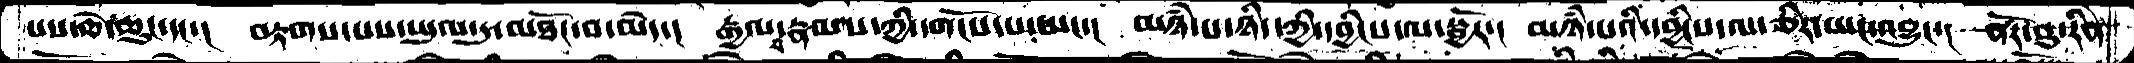པས་ཆེ་ཆུང་དང་།  བརྟགས་པས་ཡུལ་དུ་མཐོང་བ་མེད་།  རྒྱལ་བ་རྣམས་ཀྱི་དགོངས་པ་ཡང་།  མཉཾ་པ་ཉིད་ཀྱི་དབྱིངས་ལ་སྦྱོར་།  མཉཾ་པའི་དབྱིངས་ལ་ཅིར་ཡང་འབྱུང་།  ནོར་བུ་རིན
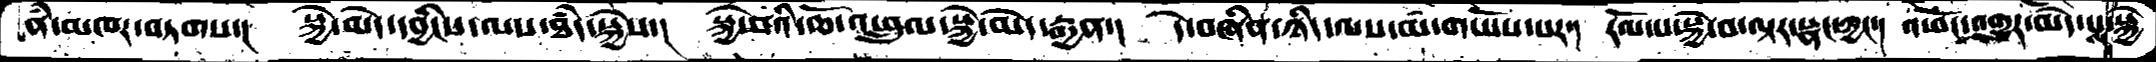ནཾ་མཁར་བཏགས་།  སྐྱེ་མེད་དབྱིངས་ལས་ཐཾད་སྐྱེས་།  སྐྱེ་བའི་ཆོ་འཕྲུལ་སྐྱེ་མེད་རྒྱན་།  དེ་བཞིན་ཉིད་ལས་མ་གཡོས་པར་།  རོལ་པ་སྐྱེ་བ་ལྟར་སྣང་ཀྱང་།  འཕོང་འགྱུར་མེད་པས་སྐྱེ
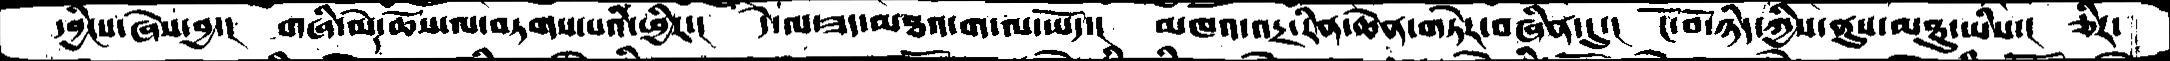དབྱིངས་ཞེས་བྱ་།  གཞི་མེད་ཆོས་ལ་བཏགས་པའི་ཕྱིར་།  དེ་ལ་ཟད་མཐའ་ག་ལ་ཡོད་།  མཁའ་འདྲ་རིན་ཆེན་གཏེར་བཞིན་དུ་།  ངོོ་བོ་ཉིད་ཀྱིས་ནུས་མཐུ་ཡིས་།  ཅིར་
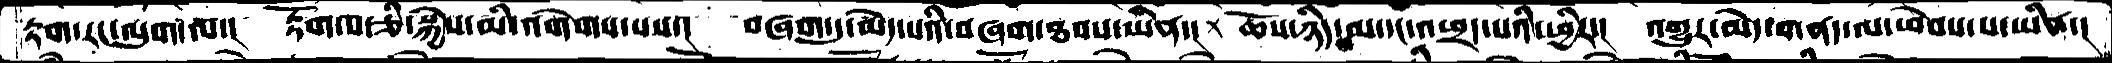རྟག་རང་ལུག་ལ་།  རྟོག་པ་ཅི་སྐྱེས་མི་འགེགས་པས་།  བཞག་དུ་མེད་པའི་བཞག་ཐབས་ཡིན་།  ཆོས་ཉིད་མ་དང་འཕྲད་པའི་ཕྱིར་།  འགྱུར་མེད་གནད་ལ་ཕེབས་པ་ཡིན་།
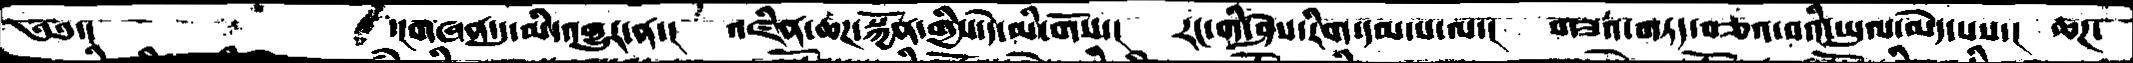༄༅་།  ་།གཞན་དུ་མི་འགྱུར་ན་།  འཛིན་ཆཌ་སྐྱོན་གྱིས་དེ་མི་གོས་།  རང་གི་ཤེས་རིག་དམ་པ་ལ་།  གཟའ་གཏད་བཅའ་བའི་ཡུལ་མེད་པས་།  ཆཌ་
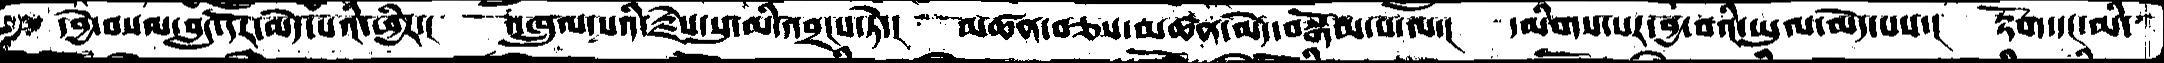དབྱེ་བསམ་བླང་དོར་མེད་པའི་ཕྱིར་།  འཁྲུལ་པའི་རྗེས་སུ་མི་འབྲངས་ཏེ་།  མཚན་བཅས་མཚན་མེད་བསྒོམ་པ་ལ་།  དམིགས་པར་བྱ་བའི་ཡུལ་མེད་པས་།  རྟོག་དང་མི་
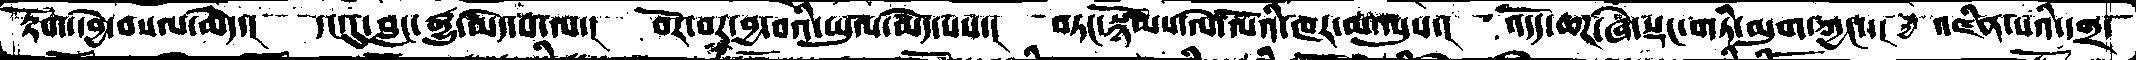རྟོག་དབྱེ་བསལ་མེད་།  དང་དུ་བླང་རྒྱུ་མེད་པ་ལ་།  བོར་བར་བྱ་བའི་ཡུལ་མེད་པས་།  བཏང་སྙོམས་ལེ་ལོའི་ཁར་མ་ལུས་།  འདོད་ཆཌ་ཞེ་སྡང་གཏི་མུག་ཀྱང་། ཀྱི  འཛིན་པའི་དགྲ་
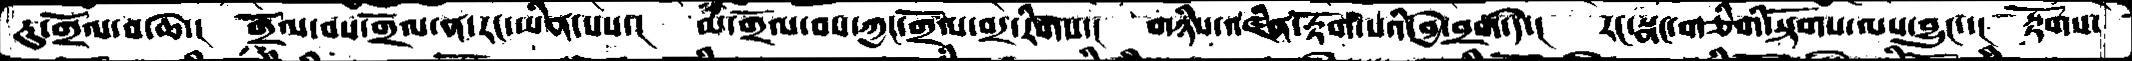རུ་གྲོལ་བ་ཆེ་།  གྲོལ་བས་གྲོལ་ན་རང་ཡིན་པས་།  མ་གྲོལ་བས་ཀྱང་གྲོལ་བར་རིགས་།  གཉིས་འཛིན་རྟོག་པའི་བྱེ་བྲག་དེ་།  རང་སྣང་གཅིགི་སྟོགས་ལས་བྱུང་།  རྟོགས་
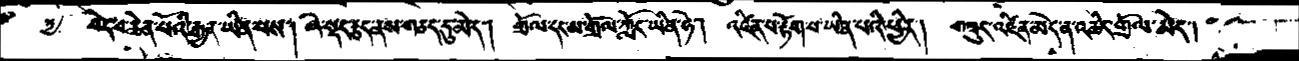༧  བདེ་བ་ཆེན་པོའི་རྒྱན་ཡིན་པས།  ཞེ་སྡང་རྩད་ནས་གཅད་དུ་མེད་།  གྲོལ་དང་མ་གྲོལ་ཀློང་ཡིན་ཏེ།  འཛིན་པ་རྟོག་པ་ཡིན་པའི་ཕྱིར།  གཟུང་འཛིན་མེད་ན་འཆིང་གྲོལ་མེད།
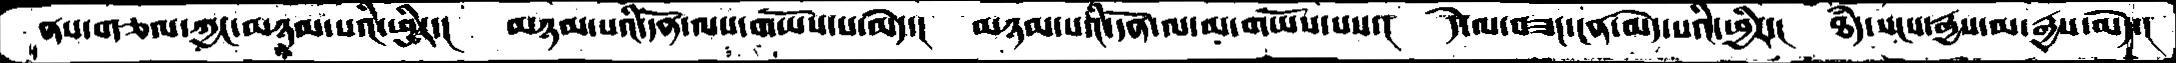ནས་གཅལ་ཀྱང་མཉམ་པའི་ཕྱིར་།  མཉམ་པའི་དོན་ལས་གཡོས་པ་མེད་།  མཉམ་པའི་དོན་ལ་མ་གཡོས་པས་།  དེ་ལ་བཟང་ངན་མེད་པའི་ཕྱིར་།  ཐཾད་སངས་རྒྱས་མ་རྒྱས་མེད་།
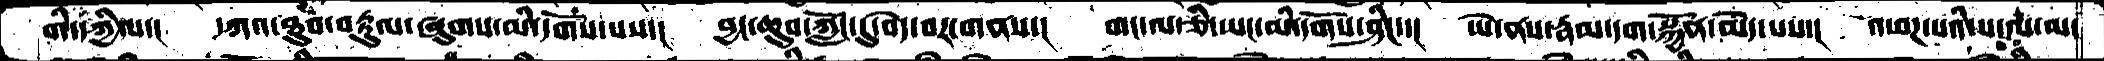གི་དཀྱིལ་།  དཀའ་ཐུབ་བརྟུལ་ཞུགས་མི་དགོས་པས་།  བྱང་ཆུབ་ཀློང་དུ་བདེ་བར་གནས་།  གང་ལ་ཅི་ཡང་མི་དགོས་ཤིང་་།  ཡེ་ནས་རྣམ་དག་སྐྱོན་མེད་པས་།  འཕཌ་པའི་ས་ལ་མ་
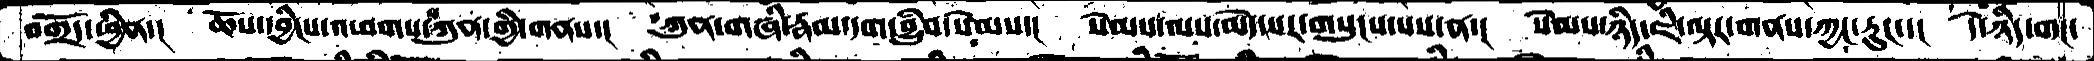བགྲོད་ཕྱིན་།  ཆོས་དབྱིངས་འཕགས་པ་ཀུན་གྱི་གནས་།  ཀུན་གཞི་རྣམ་དག་བྱུཾབ་སེམས་།  སེམས་ལས་མེད་པར་གསུངས་པས་ན་།  སེམས་ཉིད་ཇི་ལྟར་གནས་ཀྱང་རུང་་།   དེ་ཉིད་གང་
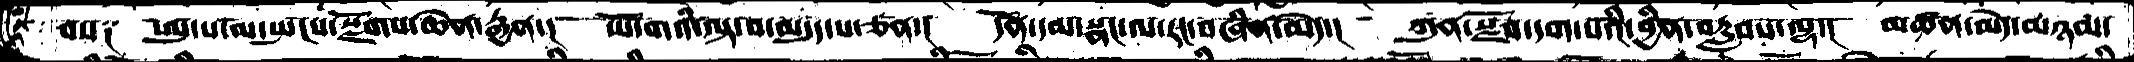བས༑  ཨུ་པ་མ་སྤངས་སྫོགས་ཆེན་རྒྱན་།  ཡོ་གའི་ལྟ་བ་མདུད་པ་ཅན་།  དོན་དམ་སྣང་ལ་རང་བཞིན་མེད་།  ཀུན་སྫོབ་དག་པའི་བྱིན་བརླབས་ལྷ་།  མཚན་མེད་མཉམ་
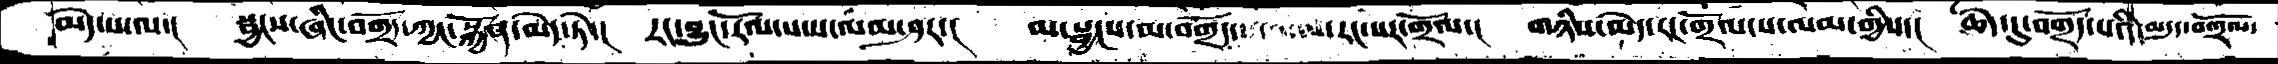མེད་པ་ལ་།  སྦྱངས་ཞིང་བགྲོད་ཀྱང་སྐྱོན་མེད་ཏེ་།  རང་བྱུང་རོལ་པ་ས་ལམ་ཤར་།  མ་སྦྱངས་མ་བགྲོད་   རང་སར་གྲོལ་།  གཉིས་མེད་རང་གྲོལ་ས་ལམ་གྱིས་།  ཆེད་དུ་བགྲོད་པའི་མདུད་བགྲོལ་
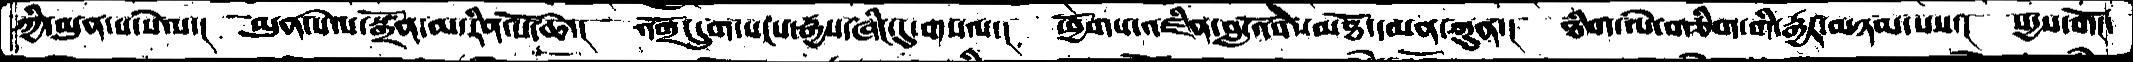ཀྱི་མུན་པ་སེལ་། མུན་སེལ་སྒྲོན་མ་རིན་པོ་ཆེ་། འགྲོ་དྲུག་སངས་རྒྱས་ཞིང་དུ་གསལ་། ཕྱོགས་འཛིན་བློ་བས་མཐོ་དམན་ཀུན་། ཐིག་ལེ་གཅིག་གི་རྒྱར་མཉམ་པས་། སདྱས་གོང་
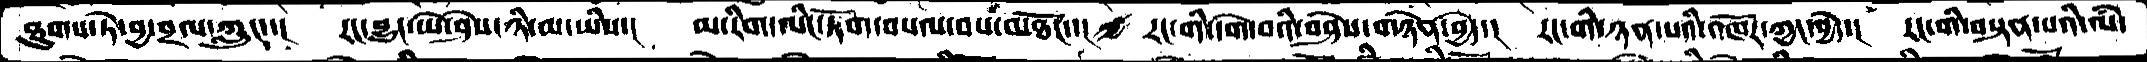ཐུགས་ཏེ་བྱ་བྲལ་ཀླུང་་། རང་བྱུང་ཡེ་ཤེས་ཉི་མ་ཡིས་། མ་རིག་ལིང་ཏོག་བསལ་བས་མཐོང་་། རང་གི་དགེ་བའི་བཤེས་གཉེན་བྱེད་། རང་གི་ཉན་པའི་འཁོར་ཀྱང་བྱེད་། རང་གི་བསྟན་པའི་ལཾ་
